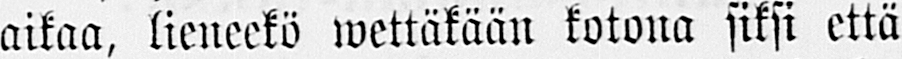aikaa, lieneekö wettäkään kotona siksi että
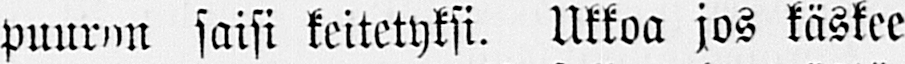puuron saisi keitetyksi. Ukkoa jos käskee
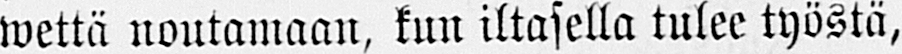wettä noutamaan, kun iltasella tulee työstä,
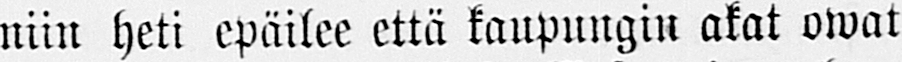niin heti epäilee että kaupungin akat owat
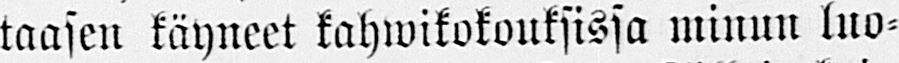taasen käyneet kahwikokouksissa minun luo-
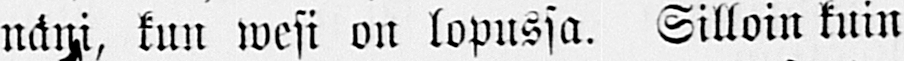nani, kun wesi on lopussa. Silloin kuin
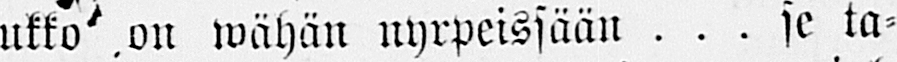ukko on wähän nyrpeissään . . . se ta-
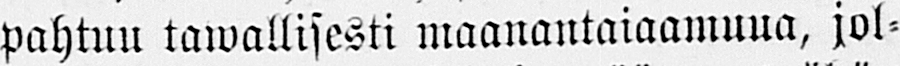pahtuu tawallisesti maanantaiaamuua, jol-
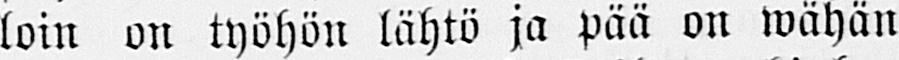loin on työhön lähtö ja pää on wähän
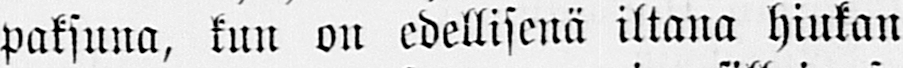paksuna, kun on edellisenä iltana hiukan
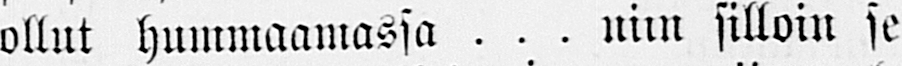ollut hummaamassa . . . niin silloin se
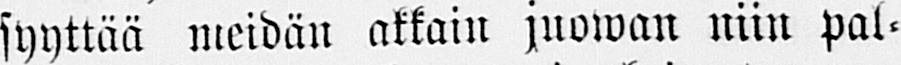syyttää meidän akkain juowan niin pal-
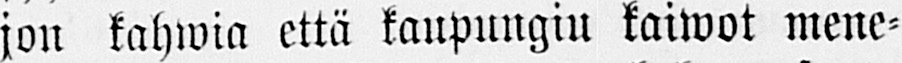jon kahwia että kaupungiu kaiwot mene-
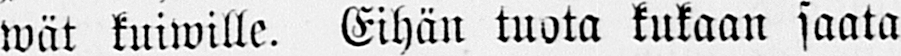wät kuiwille. Eihän tuota kukaan saata
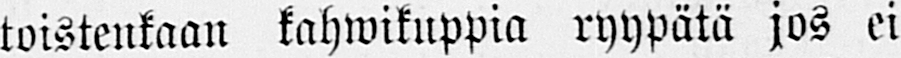toistenkaan kahwikuppia ryypätä jos ei
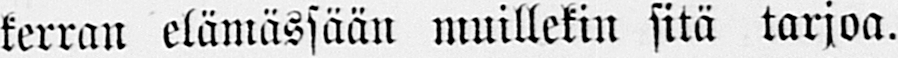kerran elämässään muillekin sitä tarjoa.
